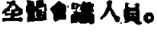全體會議人員。
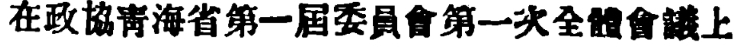在政協靑海省第一屆委員會第一次全體會議上
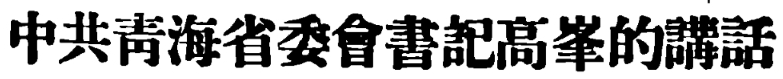中共靑海省委員會書記高峯的講話
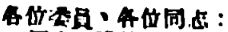各爲委員、各位同志：
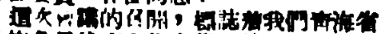這次會議的召開，標誌着我們靑海省
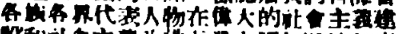各族各界代表人物在偉大的社會主義建
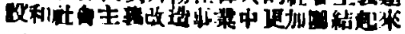設和社會主義改造事業中更加團結起來
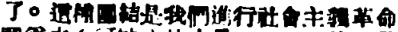了。這種團結是我們進行社會主義革命
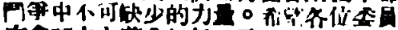鬥爭中不可缺少的力量。希望各位委員
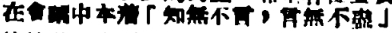在會議中本着「知無不言，言無不盡」
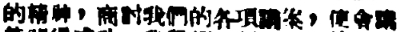的精神，商討我們的各項議案，使會議
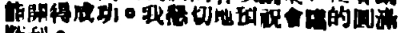能開得成功。我懇切地預祝會議的圓滿
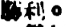勝利。
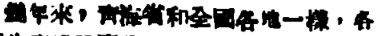幾年來，靑海省和全國各地一樣，各
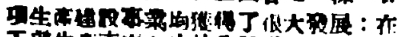項生產建設事業均獲得了很大發展：在
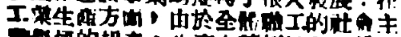工業生產方面，由於全體職工的社會主
